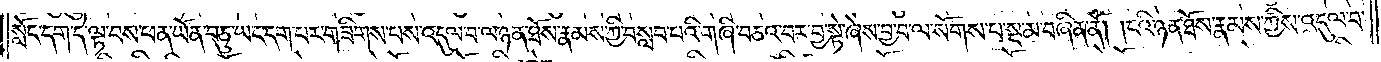སློང་དག་དེ་ལྟ་བས་ཕན་ཡོན་བཅུ་ཡང་དག་པར་གཟིགས་པས་འདུལ་བ་ལ་ཉན་ཐོས་རྣམས་ཀྱི་བསླབ་པའི་གཞི་བཅའ་བར་བྱ་སྡེ་ཞེས་བྱ་བ་ལ་སོགས་པ་སྔ་མ་བཞིན་ནོ། །ངའི་ཉན་ཐོས་རྣམས་ཀྱིས་འདུལ་བ་
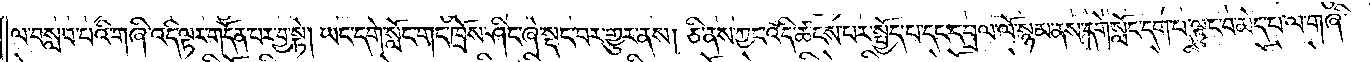ལ་བསླབ་པའི་གཞི་འདི་ལྟར་གདོན་པར་བྱ་སྟེ། ཡང་དགེ་སློང་གང་ཁྲོས་ཤིང་ཞེ་སྡང་བར་གྱུར་ནས། ཅི་ནས་ཀྱང་འདི་ཚངས་པར་སྤྱོད་པ་དང་དབྲལ་ལོ་སྙམ་ནས་དགེ་སློང་དག་པ་ལྟུང་བ་མེད་པ་ལ་གཞི་
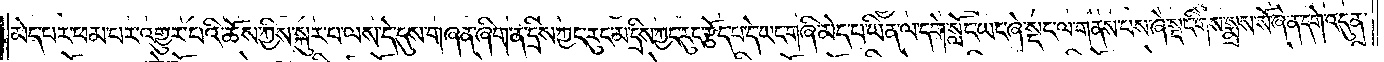མེད་པར་ཕམ་པར་འགྱུར་བའི་ཆོས་ཀྱིས་སྐུར་པ་ལས་དེ་དུས་གཞན་ཞིག་ན་དྲིས་ཀྱང་རུང་མ་དྲིས་ཀྱང་རུང་རྩོད་པ་དེ་ཡང་གཞི་མེད་པ་ཡིན་ལ་དགེ་སློང་ཡང་ཞེ་སྡང་ལ་གནས་པས་ཞེ་སྡང་གིས་སྨྲས་སོ་ཞེ་ན་དགེ་འདུན་
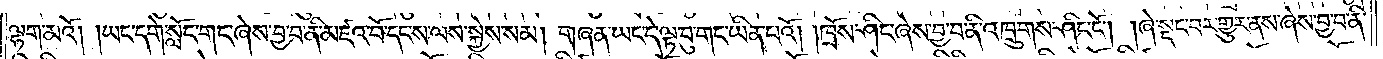ལྷག་མའོ། །ཡང་དགེ་སློང་གང་ཞེས་བྱ་བ་ནི་མཛའ་བོ་དང་ས་ལས་སྐྱེས་སམ། གཞན་ཡང་དེ་ལྟ་བུ་གང་ཡིན་པའོ། །ཁྲོས་ཤིང་ཞེས་བྱ་བ་ནི་འཁྲུགས་ཤིང་ངོ༌། །ཞེ་སྡང་བར་གྱུར་ནས་ཞེས་བྱ་བ་ནི་
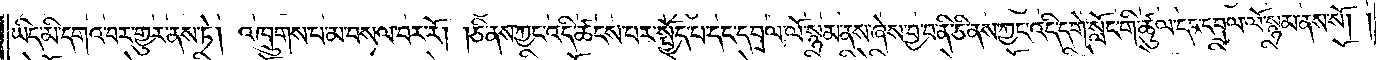ཡིད་མི་དགའ་བར་གྱུར་ནས་ཏེ། འཁྲུགས་པ་མ་བསལ་བར་རོ། །ཅི་ནས་ཀྱང་འདི་ཚངས་པར་སྤྱོད་པ་དང་དབྲལ་ལོ་སྙམ་ནས་ཞེས་བྱ་བ་ནི་ཅི་ནས་ཀྱང་འདི་དགེ་སློང་གི་ཚུལ་དང་དབྲལ་ལོ་སྙམ་ནས་སོ། །
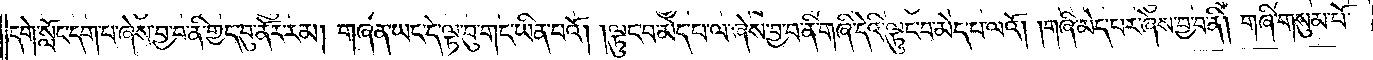དགེ་སློང་དག་པ་ཞེས་བྱ་བ་ནི་གྱད་བུ་ནོར་རམ། གཞན་ཡང་དེ་ལྟ་བུ་གང་ཡིན་པའོ། །ལྟུང་བ་མེད་པ་ལ་ཞེས་བྱ་བ་ནི་གཞི་དེའི་ལྟུང་བ་མེད་པ་ལའོ། །གཞི་མེད་པར་ཞེས་བྱ་བ་ནི། གཞི་གསུམ་པོ་
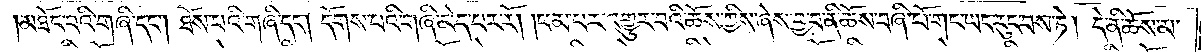མཐོང་བའི་གཞི་དང༌། ཐོས་པའི་གཞི་དང༌། དོགས་པའི་གཞི་མེད་པར་རོ། །ཕམ་པར་འགྱུར་བའི་ཆོས་ཀྱིས་ཞེས་བྱ་བ་ནི་ཆོས་བཞི་པོ་གང་ཡང་རུང་བས་ཏེ། དེ་ནི་ཆོས་མ་
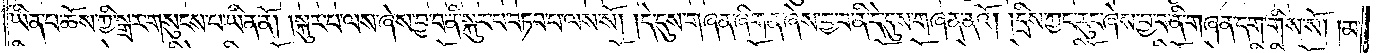ཡིན་པ་ཆོས་ཀྱི་སྒྲར་གསུངས་པ་ཡིན་ནོ། །སྐུར་པ་ལས་ཞེས་བྱ་བ་ནི་སྐུར་པ་བཏབ་པ་ལས་སོ། །དེ་དུས་གཞན་ཞིག་ན་ཞེས་བྱ་བ་ནི་དེ་དུས་གཞན་ནའོ། །དྲིས་ཀྱང་རུང་ཞེས་བྱ་བ་ནི་གཞན་དག་གིས་སོ། །མ་
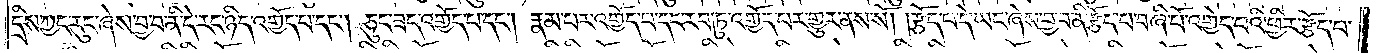དྲིས་ཀྱང་རུང་ཞེས་བྱ་བ་ནི་དེ་རང་ཉིད་འགྱོད་པ་དང༌། ཅུང་ཟད་འགྱོད་པ་དང༌། རྣམ་པར་འགྱོད་པ་དང་རབ་ཏུ་འགྱོད་པར་གྱུར་ནས་སོ། །རྩོད་པ་དེ་ཡང་ཞེས་བྱ་བ་ནི་རྩོད་པ་བཞི་པོ་འགྱེད་པའི་ཕྱིར་རྩོད་པ་
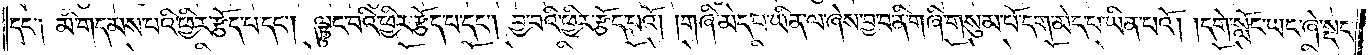དང༌། མི་གདམས་པའི་ཕྱིར་རྩོད་པ་དང༌། ལྟུང་བའི་ཕྱིར་རྩོད་པ་དང༌། བྱ་བའི་ཕྱིར་རྩོད་པའོ། །གཞི་མེད་པ་ཡིན་ལ་ཞེས་བྱ་བ་ནི་གཞི་གསུམ་པོ་དག་མེད་པ་ཡིན་པའོ། །དགེ་སློང་ཡང་ཞེ་སྡང་
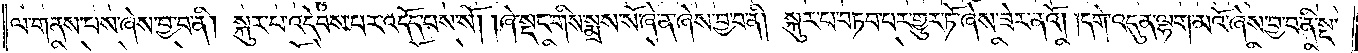ལ་གནས་པས་ཞེས་བྱ་བ་ནི། སྐུར་བ་འདེབས་པར་འདོད་པས་སོ། །ཞེ་སྡང་གིས་སྨྲས་སོ་ཞེ་ན་ཞེས་བྱ་བ་ནི། སྐུར་པ་བཏབ་པར་གྱུར་ཏོ་ཞེས་ཟེར་ནའོ། །དགེ་འདུན་ལྷག་མའོ་ཞེས་བྱ་བ་ནི་སྔ་
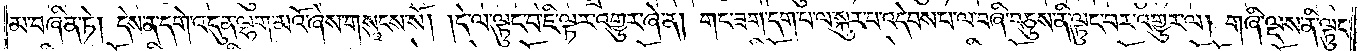མ་བཞིན་ཏེ། དེས་ན་དགེ་འདུན་ལྷག་མའོ་ཞེས་གསུངས་སོ། །དེ་ལ་ལྟུང་བ་ཇི་ལྟར་འགྱུར་ཞེ་ན། གང་ཟག་དག་པ་ལ་སྐུར་པ་འདེབས་པ་ལ་བཞི་བཅུས་ནི་ལྟུང་བར་འགྱུར་ལ། གཞི་ལྔས་ནི་ལྟུང་
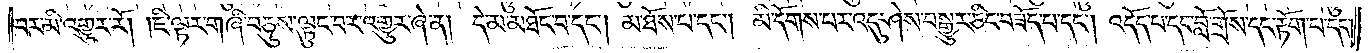བར་མི་འགྱུར་རོ། །ཇི་ལྟར་གཞི་བཅུས་ལྟུང་བར་འགྱུར་ཞེ་ན། དེ་མ་མཐོང་བ་དང༌། མ་ཐོས་པ་དང༌། མི་དོགས་པར་འདུ་ཤེས་བསྒྱུར་ཅིང་བཟོད་པ་དང༌། འདོད་པ་དང་བློ་གྲོས་དང་རྟོག་པ་དང༌།
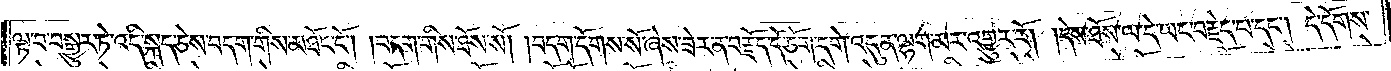ལྟ་བ་བསྒྱུར་ཏེ་འདི་སྐད་ཅེས་བདག་གིས་མཐོང་ངོ༌། །བདག་གིས་ཐོས་སོ། །བདག་དོགས་སོ་ཞེས་ཟེར་ན་བརྗོད་དོ་ཅོག་དགེ་འདུན་ལྷག་མར་འགྱུར་རོ། །དེས་ཐོས་ལ་དེ་ཡང་བརྗེད་པ་དང༌། དེ་དོགས་
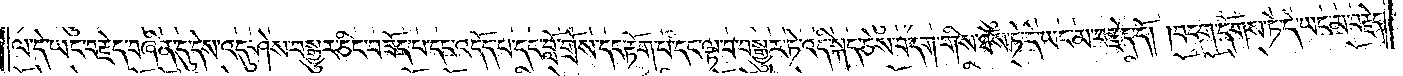ལ་དེ་ཡང་བརྗེད་བཞིན་དུ་དེས་འདུ་ཤེས་བསྒྱུར་ཅིང་བཟོད་པ་དང་འདོད་པ་དང་བློ་གྲོས་དང་རྟོག་པ་དང་ལྟ་བ་བསྒྱུར་ཏེ་འདི་སྐད་ཅེས་བདག་གིས་ཐོས་ཏེ་དེ་ཡང་མ་བརྗེད་དོ། །བདག་དོགས་ཏེ་དེ་ཡང་མ་བརྗེད་
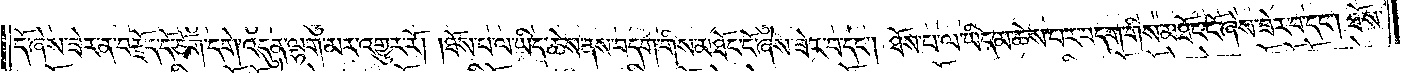དོ་ཞེས་ཟེར་ན་བརྗོད་དོ་ཅོག་དགེ་འདུན་ལྷག་མར་འགྱུར་རོ། །ཐོས་པ་ལ་ཡིད་ཆེས་ནས་བདག་གིས་མཐོང་ངོ་ཞེས་ཟེར་བ་དང༌། ཐོས་པ་ལ་ཡིད་མ་ཆེས་པར་བདག་གིས་མཐོང་ངོ་ཞེས་ཟེར་བ་དང༌། ཐོས་
